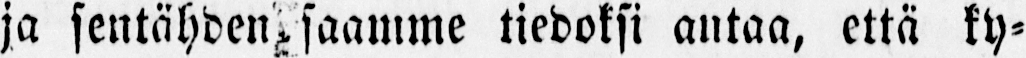ja sentähden saamme tiedoksi antaa, että ky-
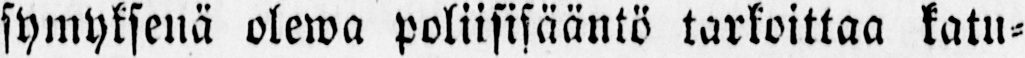symyksenä olewa poliisisääntö tarkoittaa katu-
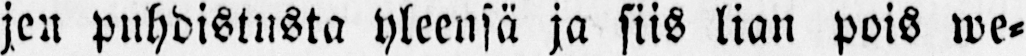jen puhdistusta yleensä ja siis lian pois we-
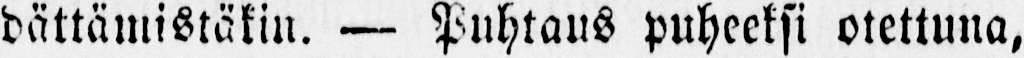dättämistäkin. — Puhtaus puheeksi otettuna,
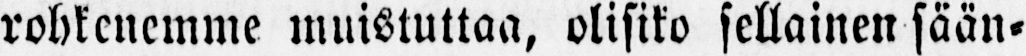rohkenemme muistuttaa, olisiko sellainen sään-
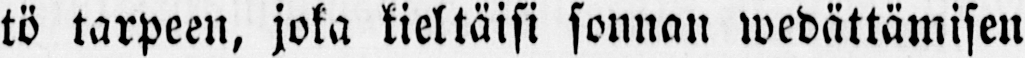tö tarpeen, joka kieltäisi sonnan wedättämisen
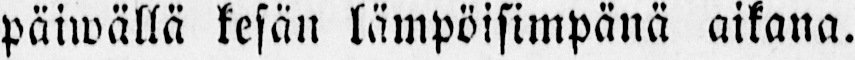päiwällä kesän lämpöisimpänä aikana.
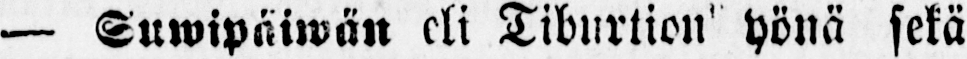— Suwipäwän eli Tiburtion yönä sekä
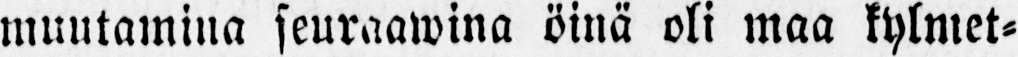muutamina seuraawina öinä oli maa kylmet-
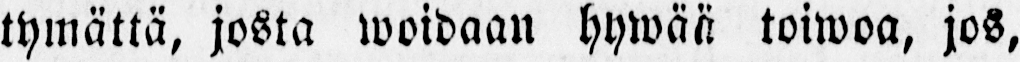tymättä, josta woidaan hywää toiwoa, jos,
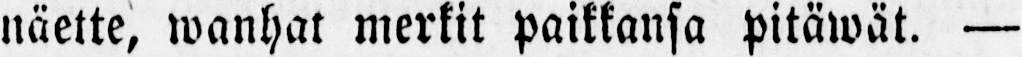näette, wanhat merkit paikkansa pitäwät. —
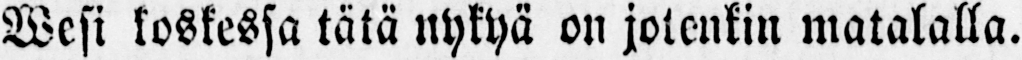Wesi koskessa tätä nykyä on jotenkin matalalla.
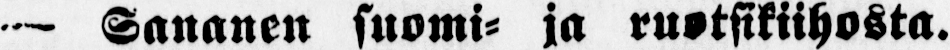— Sananen suomi- ja ruotsikiihosta.
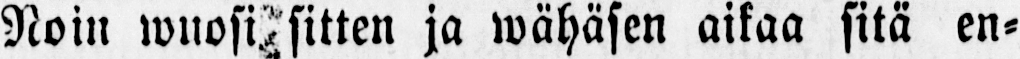Noin wuosi sitten ja wähäsen aikaa sitä en-
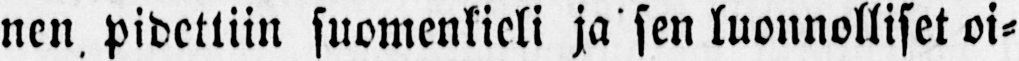nen pidettiin suomenkieli ja sen luonnolliset oi-
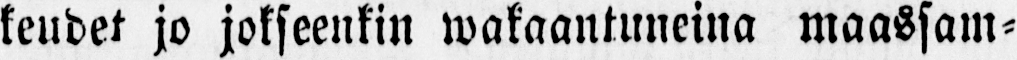keudet jo jokseenkin wakaantuneina maassam-
